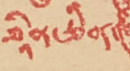ཐཱིན་ཅིན་
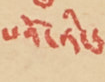པའོ་ཏིང་
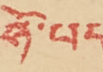ཧོ་པད་
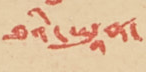ཐའི་ཡཱུན་
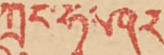ཀྲུང་ཧྭ་ཤར་
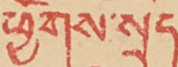ཕྱོགས་སྲིད་
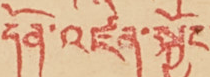དོན་འཛིན་སྐྱོང་
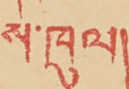ས་ཁུལ།
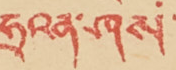ཧྲའན་ཤིས་
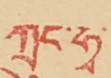ཀྲུང་ཧྭ་
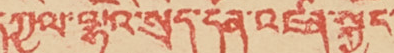དཀྱིལ་ལྷོའི་སྲིད་དོན་འཛིན་སྐྱོང་
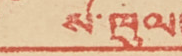ས་ཁུལ།
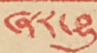ཞར་བྱུང་
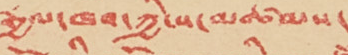རྒྱལ་ཁབ་ཀྱི་ས་མཚམས་
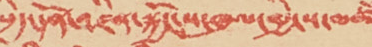སྲིད་དོན་འཛིན་སྐྱོང་ས་ཁུལ་གྱི་ས་མཚཾས་
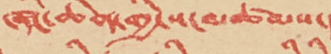ཞིང་ཆེན་གྱི་ས་མཚམས་།
